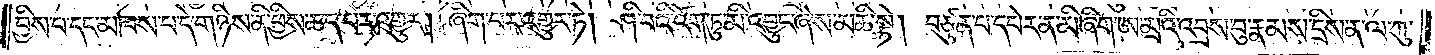བྱིས་པ་དང་མཁས་པ་དེ་གཉིས་ནི་ཕྱིས་ཆད་པར་འགྱུར། ཞིག་པར་འགྱུར་ཏེ། ཤི་བའི་འོག་ཏུ་མི་འབྱུང་ཞེས་མཆི་སྟེ། བཙུན་པ་དཔེར་ན་མི་ཞིག་ཨ་མྲའི་འབྲས་བུ་རྣམས་དྲིས་ན་ལ་ཀུ་
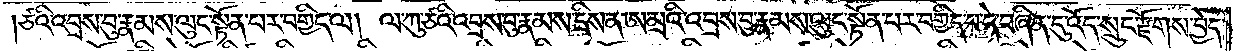ཙའི་འབྲས་བུ་རྣམས་ལུང་སྟོན་པར་བགྱིད་ལ། ལ་ཀུ་ཙའི་འབྲས་བུ་རྣམས་དྲིས་ན་ཨ་མྲའི་འབྲས་བུ་རྣམས་ལུང་སྟོན་པར་བགྱིད་པ་དེ་བཞིན་དུ་འོད་སྲུང་རྫོགས་བྱེད་
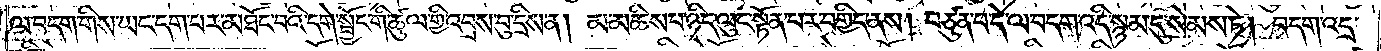ལ་བདག་གིས་ཡང་དག་པར་མཐོང་བའི་དགེ་སྦྱོང་གི་ཚུལ་གྱི་འབྲས་བུ་དྲིས་ན། མ་མཆིས་པ་ཉིད་ལུང་སྟོན་པར་བགྱིད་ནས། བཙུན་པ་དེ་ལ་བདག་འདི་སྙམ་དུ་སེམས་ཏེ། བདག་འདྲ་
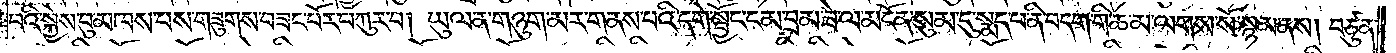བའི་སྐྱེས་བུ་མཁས་པས་གཟུགས་བཟང་པོར་བཀུར་བ། ཡུལ་ན་གཉུག་མར་གནས་པའི་དགེ་སྦྱོང་ངམ་བྲམ་ཟེ་ལ་མངོན་སུམ་དུ་སྨད་པ་ནི་བདག་གི་ཆ་མ་ལགས་སོ་སྙམ་ནས། བཙུན་
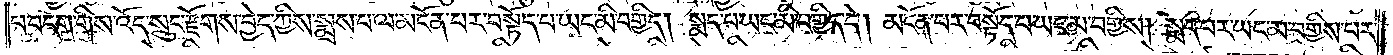པ་བདག་གིས་འོད་སྲུང་རྫོགས་བྱེད་ཀྱིས་སྨྲས་པ་ལ་མངོན་པར་བསྟོད་པ་ཡང་མི་བགྱིད། སྨད་པ་ཡང་མི་བགྱིད་དེ། མངོན་པར་བསྟོད་པ་ཡང་མ་བགྱིས། སྨད་པར་ཡང་མ་བགྱིས་པར་
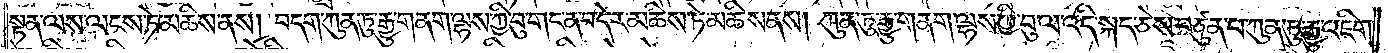སྟན་ལས་ལངས་ཏེ་མཆིས་ནས། བདག་ཀུན་ཏུ་རྒྱུ་གནག་ལྷས་ཀྱི་བུ་གང་ན་བ་དེར་མཆིས་ཏེ་མཆིས་ནས། ཀུན་ཏུ་རྒྱུ་གནག་ལྷས་ཀྱི་བུ་ལ་འདི་སྐད་ཅེས་བཙུན་པ་ཀུན་ཏུ་རྒྱུ་འཇིག་
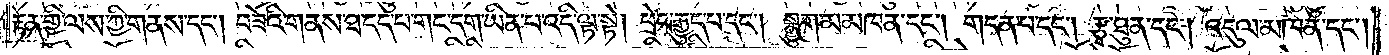རྟེན་གྱི་ལས་ཀྱི་གནས་དང༌། བཟོའི་གནས་ཐ་དད་པ་གང་དག་ཡིན་པ་འདི་ལྟ་སྟེ། ཕྲེང་རྒྱུད་པ་དང༌། སྨྱུག་མ་མཁན་དང༌། གདན་པ་དང༌། རྩྭ་ཐུན་དང༌། འདུལ་མཁན་དང༌།
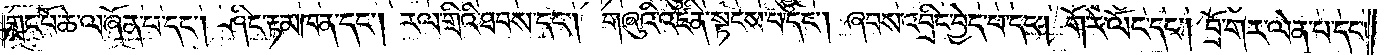གླང་པོ་ཆེ་ལ་ཞོན་པ་དང༌། ཤིང་རྟ་མཁན་དང༌། རལ་གྲིའི་ཐབས་དང༌། གཞུའི་འཛིན་སྟངས་པ་དང༌། ཞབས་འབྲིང་བྱེད་པ་དང༌། གོ་རེ་ལོང་དང༌། བྲོ་གར་ལེན་པ་དང༌།
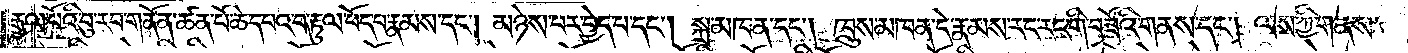རྒྱལ་པོའི་བུ་རབ་གནོན་ཚན་པོ་ཆེ་དཔའ་བ་རྟུལ་ཕོད་པ་རྣམས་དང༌། མཉེས་པར་བྱེད་པ་དང༌། སྐྲ་མཁན་དང༌། ཁྲུས་མཁན་དེ་རྣམས་རང་རང་གི་བཟོའི་གནས་དང༌། ལས་ཀྱི་གནས་
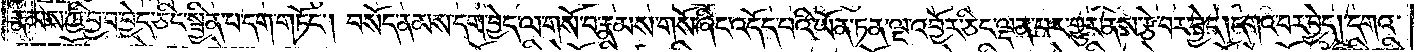རྣམས་ཀྱི་བྱ་བ་བྱེད་ཅིང་སྦྱིན་པ་དག་གཏོང༌། བསོད་ནམས་དག་བྱེད་ལ་གསོ་བ་རྣམས་གསོ་ཞིང་འདོད་པའི་ཡོན་ཏན་ལྔ་འབྱོར་ཅིང་ལྡན་པར་གྱུར་ནས་རྩེ་བར་བྱེད། དགའ་བར་བྱེད། དགའ་
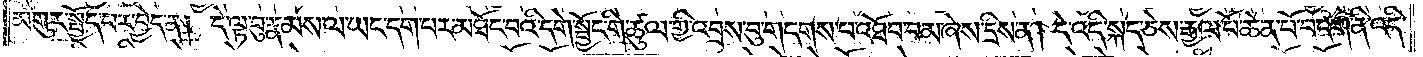མགུར་སྤྱོད་པར་བྱེད་ན། དེ་ལྟ་བུ་རྣམས་ལ་ཡང་དག་པར་མཐོང་བའི་དགེ་སྦྱོང་གི་ཚུལ་གྱི་འབྲས་བུ་གདགས་པ་འཐོབ་བམ་ཞེས་དྲིས་ན། དེ་འདི་སྐད་ཅེས་རྒྱལ་པོ་ཆེན་པོ་བདག་ནི་འདི་
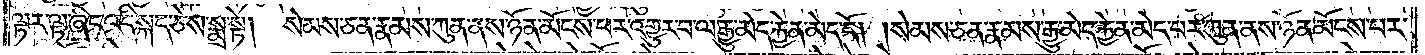ལྟར་ལྟ་ཞིང་འདི་སྐད་ཅེས་སྨྲ་སྟེ། སེམས་ཅན་རྣམས་ཀུན་ནས་ཉོན་མོངས་པར་འགྱུར་བ་ལ་རྒྱུ་མེད་རྐྱེན་མེད་དོ། །སེམས་ཅན་རྣམས་རྒྱུ་མེད་རྐྱེན་མེད་པར་ཀུན་ནས་ཉོན་མོངས་པར་
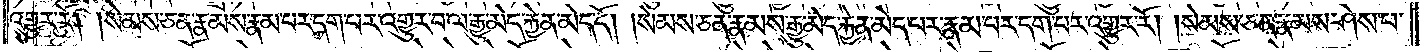འགྱུར་རོ། །སེམས་ཅན་རྣམས་རྣམ་པར་དག་པར་འགྱུར་བ་ལ་རྒྱུ་མེད་རྐྱེན་མེད་དོ། །སེམས་ཅན་རྣམས་རྒྱུ་མེད་རྐྱེན་མེད་པར་རྣམ་པར་དག་པར་འགྱུར་རོ། །སེམས་ཅན་རྣམས་ཤེས་པ་
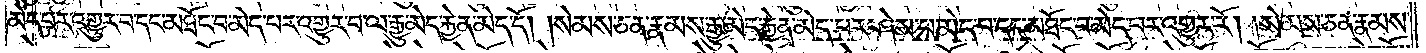མེད་པར་འགྱུར་བ་དང་མཐོང་བ་མེད་པར་འགྱུར་བ་ལ་རྒྱུ་མེད་རྐྱེན་མེད་དོ། །སེམས་ཅན་རྣམས་རྒྱུ་མེད་རྐྱེན་མེད་པར་ཤེས་པ་མེད་པ་དང་མཐོང་བ་མེད་པར་འགྱུར་རོ། །སེམས་ཅན་རྣམས་
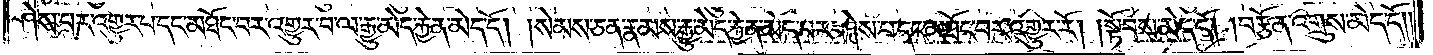ཤེས་པར་འགྱུར་པ་དང་མཐོང་བར་འགྱུར་བ་ལ་རྒྱུ་མེད་རྐྱེན་མེད་དོ། །སེམས་ཅན་རྣམས་རྒྱུ་མེད་རྐྱེན་མེད་པར་ཤེས་པ་དང་མཐོང་བར་འགྱུར་རོ། །སྟོབས་མེད་དོ། །བརྩོན་འགྲུས་མེད་དོ༎
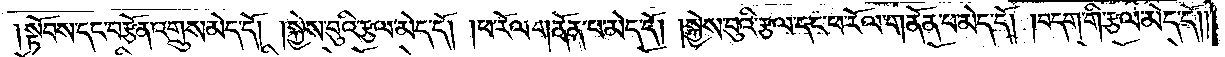སྟོབས་དང་བརྩོན་འགྲུས་མེད་དོ། །སྐྱེས་བུའི་རྩལ་མེད་དོ། །ཕ་རོལ་གནོན་པ་མེད་དོ། །སྐྱེས་བུའི་རྩལ་དང་ཕ་རོལ་གནོན་པ་མེད་དོ། །བདག་གི་རྩལ་མེད་དོ།
